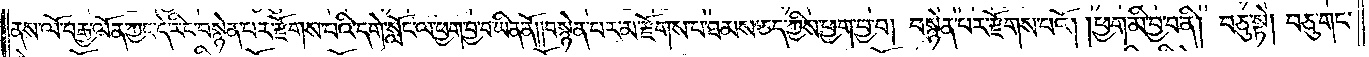ནས་ལོ་བརྒྱ་ལོན་ཀྱང་དེ་རིང་བསྙེན་པར་རྫོགས་པའི་དགེ་སློང་ལ་ཕྱག་བྱ་བ་ཡིན་ནོ། །བསྙེན་པར་མ་རྫོགས་པ་ཐམས་ཅད་ཀྱིས་ཕྱག་བྱ་བ། བསྙེན་པར་རྫོགས་པའོ། །ཕྱག་མི་བྱ་བ་ནི། བཅུ་སྟེ། བཅུ་གང་
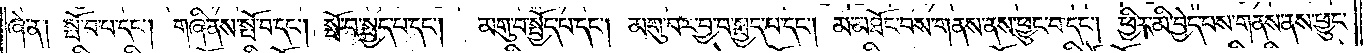ཞེ་ན། སྤོ་བ་པ་དང༌། གཞི་ནས་སྤོ་བ་དང༌། སྤོ་བ་སྤྱད་པ་དང༌། མགུ་བ་སྤྱོད་པ་དང༌། མགུ་བར་བྱ་བ་སྤྱད་པ་དང༌། མ་མཐོང་བས་གནས་ནས་ཕྱུང་བ་དང༌། ཕྱིར་མི་བྱེད་པས་གནས་ནས་ཕྱུང་
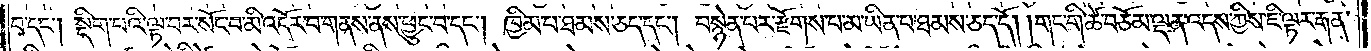བ་དང༌། སྡིག་པའི་ལྟ་བར་སོང་བ་མི་འདོར་བ་གནས་ནས་ཕྱུང་བ་དང༌། ཁྱིམ་པ་ཐམས་ཅད་དང༌། བསྙེན་པར་རྫོགས་པ་མ་ཡིན་པ་ཐམས་ཅད་དོ། །གང་གི་ཚེ་བཅོམ་ལྡན་འདས་ཀྱིས་ཇི་ལྟར་རྒན་
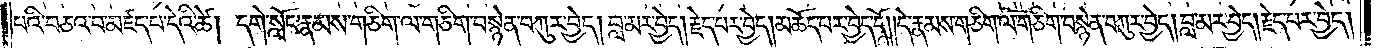པའི་བཅའ་བ་མཛད་པ་དེའི་ཚེ། དགེ་སློང་རྣམས་གཅིག་ལ་གཅིག་བསྙེན་བཀུར་བྱེད། བླ་མར་བྱེད། རྗེད་པར་བྱེད། མཆོད་པར་བྱེད་དོ། །དེ་རྣམས་གཅིག་ལ་གཅིག་བསྙེན་བཀུར་བྱེད། བླ་མར་བྱེད། རྗེད་པར་བྱེད།
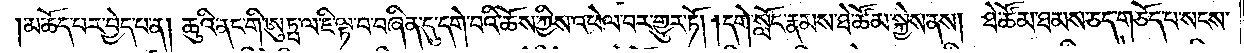མཆོད་པར་བྱེད་པ་ན། ཆུའི་ནང་གི་ཨུཏྤ་ལ་ཇི་ལྟ་བ་བཞིན་དུ་དགེ་བའི་ཆོས་ཀྱིས་འཕེལ་བར་གྱུར་ཏོ། །དགེ་སློང་རྣམས་ཐེ་ཚོམ་སྐྱེས་ནས། ཐེ་ཚོམ་ཐམས་ཅད་གཅོད་པ་སངས་
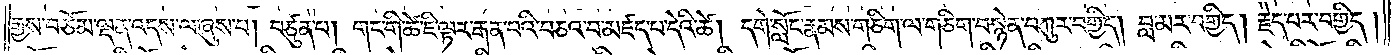རྒྱས་བཅོམ་ལྡན་འདས་ལ་ཞུས་པ། བཙུན་པ། གང་གི་ཚེ་ཇི་ལྟར་རྒན་པའི་བཅའ་བ་མཛད་པ་དེའི་ཚེ། དགེ་སློང་རྣམས་གཅིག་ལ་གཅིག་བསྙེན་བཀུར་བགྱིད། བླ་མར་བགྱིད། རྗེད་པར་བགྱིད།
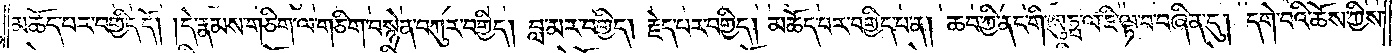མཆོད་པར་བགྱིད་དོ། །དེ་རྣམས་གཅིག་ལ་གཅིག་བསྙེན་བཀུར་བགྱིད། བླ་མར་བགྱིད། རྗེད་པར་བགྱིད། མཆོད་པར་བགྱིད་པ་ན། ཆབ་ཀྱི་ནང་གི་ཨུཏྤ་ལ་ཇི་ལྟ་བ་བཞིན་དུ། དགེ་བའི་ཆོས་ཀྱིས་
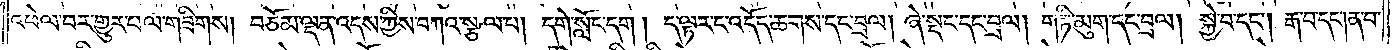འཕེལ་བར་གྱུར་པ་ལ་གཟིགས། བཅོམ་ལྡན་འདས་ཀྱིས་བཀའ་སྩལ་པ། དགེ་སློང་དག། ད་ལྟར་ང་འདོད་ཆགས་དང་བྲལ། ཞེ་སྡང་དང་བྲལ། གཏི་མུག་དང་བྲལ། སྐྱེ་བ་དང༌། རྒ་བ་དང༌། ན་བ་
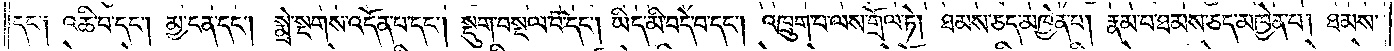དང༌། འཆི་བ་དང༌། མྱ་ངན་དང༌། སྨྲེ་སྔགས་འདོན་པ་དང༌། སྡུག་བསྔལ་བ་དང༌། ཡིད་མི་བདེ་བ་དང༌། འཁྲུག་པ་ལས་གྲོལ་ཏེ། ཐམས་ཅད་མཁྱེན་པ། རྣམ་པ་ཐམས་ཅད་མཁྱེན་པ། ཐམས་
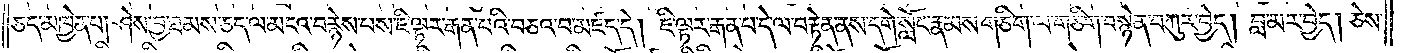ཅད་མཁྱེན་པ། ཤེས་བྱ་ཐམས་ཅད་ལ་མངའ་བརྙེས་པས་ཇི་ལྟར་རྒན་པའི་བཅའ་བ་མཛད་དེ། ཇི་ལྟར་རྒན་པ་དེ་ལ་བརྟེན་ནས་དགེ་སློང་རྣམས་གཅིག་ལ་གཅིག་བསྙེན་བཀུར་བྱེད། བླ་མར་བྱེད། ཅེས་
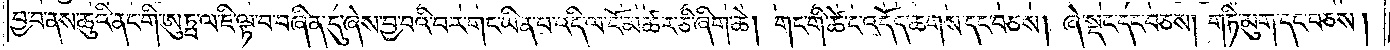བྱ་བ་ནས་ཆུའི་ནང་གི་ཨུཏྤ་ལ་ཇི་ལྟ་བ་བཞིན་དུ་ཞེས་བྱ་བའི་བར་གང་ཡིན་པ་འདི་ལ་ངོ་མཚར་ཞིག་ཆེ། གང་གི་ཚེ་ང་འདོད་ཆགས་དང་བཅས། ཞེ་སྡང་དང་བཅས། གཏི་མུག་དང་བཅས།
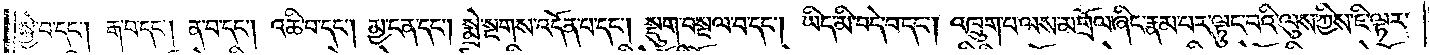སྐྱེ་བ་དང༌། རྒ་བ་དང༌། ན་བ་དང༌། འཆི་བ་དང༌། མྱ་ངན་དང༌། སྨྲེ་སྔགས་འདོན་པ་དང༌། སྡུག་བསྔལ་བ་དང༌། ཡིད་མི་བདེ་བ་དང༌། འཁྲུག་པ་ལས་མ་གྲོལ་ཞིང་རྣམ་པར་ལྟུང་བའི་ལུས་ཀྱིས་ཇི་ལྟར་
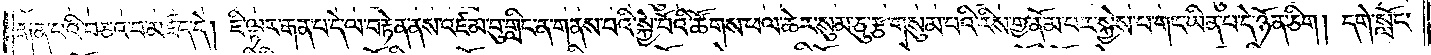རྒན་པའི་བཅའ་བ་མཛད་དེ། ཇི་ལྟར་རྒན་པ་དེ་ལ་བརྟེན་ནས་འཛམ་བུ་གླིང་ན་གནས་པའི་སྐྱེ་བོའི་ཚོགས་ཕལ་ཆེར་སུམ་ཅུ་རྩ་གསུམ་པའི་རིས་གྱ་ནོམ་པར་སྐྱེས་པ་གང་ཡིན་པ་དེ་ཉོན་ཅིག། དགེ་སློང་
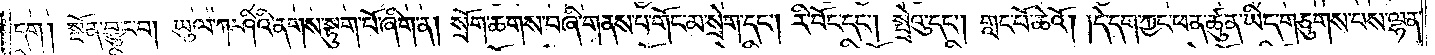དག། སྔོན་བྱུང་བ། ཡུལ་ཀ་ཤིའི་ནགས་སྟུག་པོ་ཞིག་ན། སྲོག་ཆགས་བཞི་གནས་པ་གོང་མ་སྲེག་དང༌། རི་བོང་དང༌། སྤྲེའུ་དང༌། གླང་པོ་ཆེའོ། །དེ་དག་ཀྱང་ཕན་ཚུན་ཡིད་གཅུགས་པས་ལྷན་
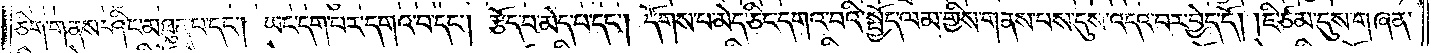ཅིག་གནས་ཤིང་མཐུན་པ་དང༌། ཡང་དག་པར་དགའ་བ་དང༌། རྩོད་པ་མེད་པ་དང༌། དོགས་པ་མེད་ཅིང་དགའ་བའི་སྤྱོད་ལམ་གྱིས་གནས་པས་དུས་འདའ་བར་བྱེད་དོ། །ཇི་ཙམ་དུས་གཞན་
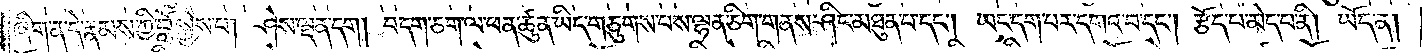ཞིག་ན་དེ་རྣམས་ཀྱི་བློ་སྐྱེས་པ། ཤེས་ལྡན་དག། བདག་ཅག་ལ་ཕན་ཚུན་ཡིད་གཅུགས་པས་ལྷན་ཅིག་གནས་ཤིང་མཐུན་པ་དང༌། ཡང་དག་པར་དགའ་བ་དང༌། རྩོད་པ་མེད་པ་ནི། ཡོད་ན།
